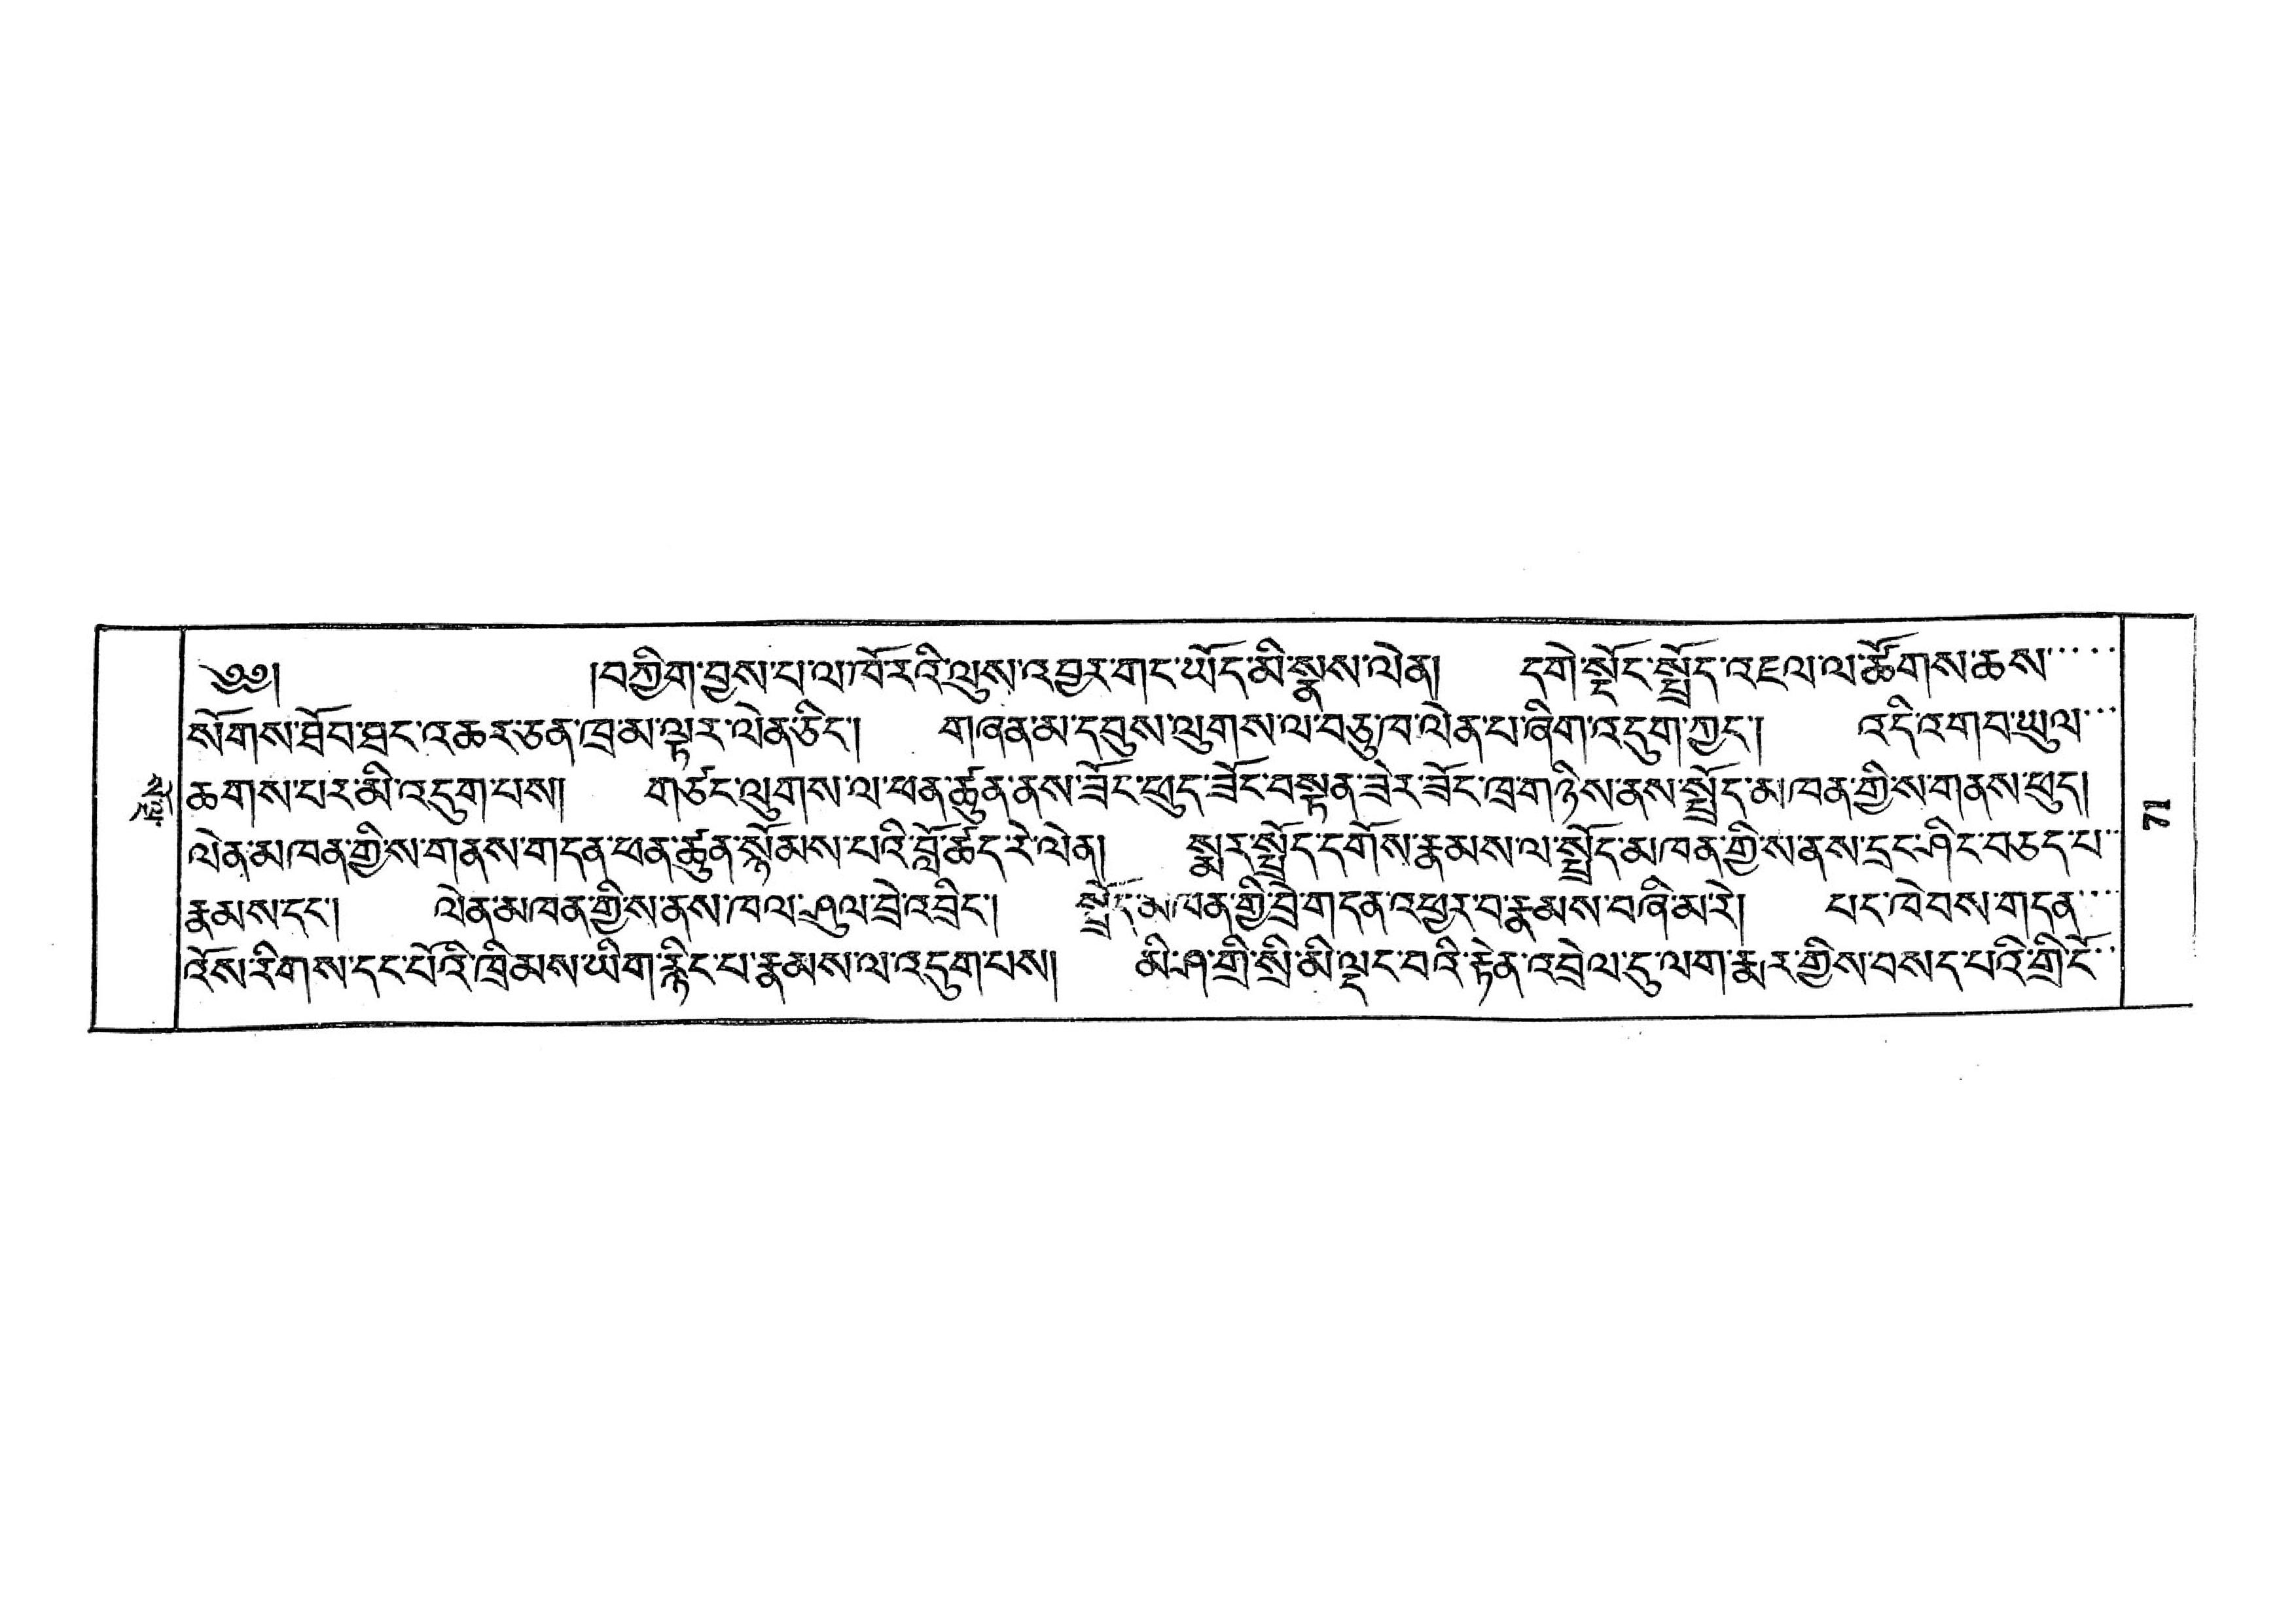སོ་ལྔ་
༄༅།  །བཀྱིག་བྱས་པ་ལ་ཁོ་རའི་ལུས་འབྱར་གང་ཡོད་མི་སྣས་ལེན། དགེ་སྡོང་སྤྲོད་འཇལ་ལ་ཚོགས་ཆས་་་་་
སོགས་ཐོབ་ཐང་འཆར་ཅན་ཁྲ་མ་ལྟར་ལེན་ཅིང་། གཞན་མ་དབུས་ལུགས་ལ་བཅུ་ཁ་ལེན་པ་ཞིག་འདུག་ཀྱང་། འདི་འགབ་ཡུལ་་་
ཆགས་པར་མི་འདུག་པས། གཙང་ལུགས་ལ་ཕན་ཚུན་ནས་ཟོང་ཕུད་ཟོང་བསྟན་ཟེར་ཟོང་ཁྲ་གཉིས་ནས་སྤྲོད་མཁན་གྱི་ས་གནས་ཕུད།
ལེན་མཁན་གྱི་ས་གནས་གདན་ཕན་ཚུན་སྙོམས་པའི་བློ་ཚད་རེ་ལེན། སྨར་སྤྲོད་དགོས་རྣམས་ལ་སྤྲོད་མཁན་གྱི་ས་ནས་དྲང་ཤིང་བཅད་པ་་
རྣམས་དང་། ལེན་མཁན་གྱི་ས་ནས་ཁལ་ཤུལ་བྲེ་འབྲིང་། སྤྲོད་མཁན་གྱི་བྲེ་གདན་འཕྱར་བ་རྣམས་བཞི་མ་རེ། པང་ཕེབས་གདན་་་
འོས་རིགས་དང་པོའི་ཁྲིམས་ཡིག་རྙིང་པ་རྣམས་ལ་འདུག་པས། མི་ཤ་གྲི་སྲི་མི་ལྡང་བའི་རྟེན་འབྲེལ་དུ་ལག་རྨར་གྱིས་བསད་པའི་གྲི་ངོ་་
